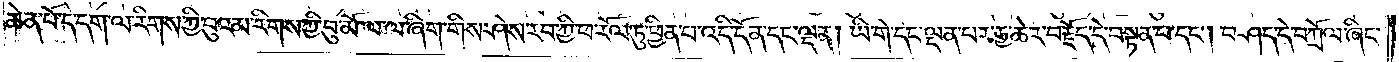ཆེན་པོ་དེ་དག་ལ་རིགས་ཀྱི་བུའམ་རིགས་ཀྱི་བུ་མོ་ལ་ལ་ཞིག་གིས་ཤེས་རབ་ཀྱི་ཕ་རོལ་ཏུ་ཕྱིན་པ་འདི་དོན་དང་ལྡན། ཡི་གེ་དང་ལྡན་པར་རྒྱ་ཆེར་བརྗོད་དེ་བསྟན་པ་དང༌། བཤད་དེ་བཀྲོལ་ཞིང་
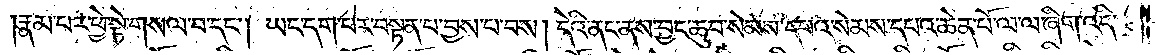རྣམ་པར་ཕྱེ་སྟེ་གསལ་བ་དང༌། ཡང་དག་པར་བསྟན་པ་བྱས་པ་བས། དེའི་ནང་ནས་བྱང་ཆུབ་སེམས་དཔའ་སེམས་དཔའ་ཆེན་པོ་ལ་ལ་ཞིག་འདི་
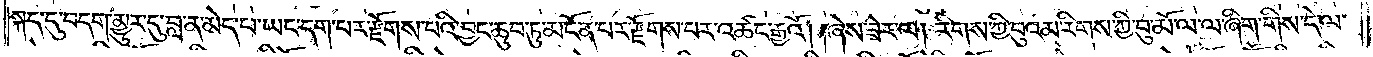སྐད་དུ་བདག་མྱུར་དུ་བླ་ན་མེད་པ་ཡང་དག་པར་རྫོགས་པའི་བྱང་ཆུབ་ཏུ་མངོན་པར་རྫོགས་པར་འཚང་རྒྱའོ། །ཞེས་ཟེར་ལ། རིགས་ཀྱི་བུའམ་རིགས་ཀྱི་བུ་མོ་ལ་ལ་ཞིག་གིས་དེ་ལ་
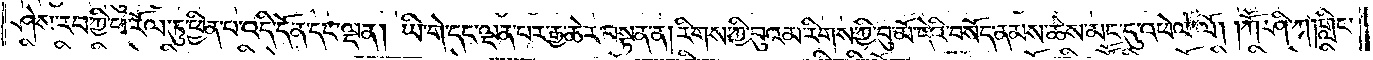ཤེས་རབ་ཀྱི་ཕ་རོལ་ཏུ་ཕྱིན་པ་འདི་དོན་དང་ལྡན། ཡི་གེ་དང་ལྡན་པར་རྒྱ་ཆེར་བསྟན་ན། རིགས་ཀྱི་བུའམ་རིགས་ཀྱི་བུ་མོ་དེའི་བསོད་ནམས་ཆེས་མང་དུ་འཕེལ་ལོ། །ཀཽ་ཤི་ཀ། གླིང་
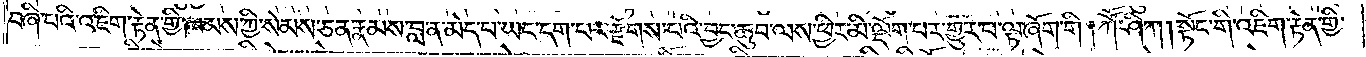བཞི་པའི་འཇིག་རྟེན་གྱི་ཁམས་ཀྱི་སེམས་ཅན་རྣམས་བླ་ན་མེད་པ་ཡང་དག་པར་རྫོགས་པའི་བྱང་ཆུབ་ལས་ཕྱིར་མི་ལྡོག་པར་གྱུར་པ་ལྟ་ཞོག་གི །ཀཽ་ཤི་ཀ། སྟོང་གི་འཇིག་རྟེན་གྱི་
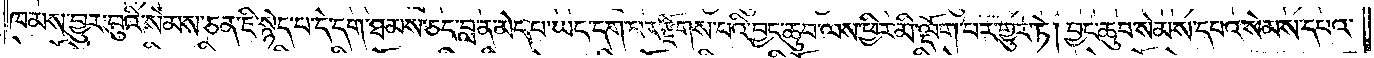ཁམས་བྱུར་བུའི་སེམས་ཅན་ཇི་སྙེད་པ་དེ་དག་ཐམས་ཅད་བླ་ན་མེད་པ་ཡང་དག་པར་རྫོགས་པའི་བྱང་ཆུབ་ལས་ཕྱིར་མི་ལྡོག་པར་གྱུར་ཏེ། བྱང་ཆུབ་སེམས་དཔའ་སེམས་དཔའ་
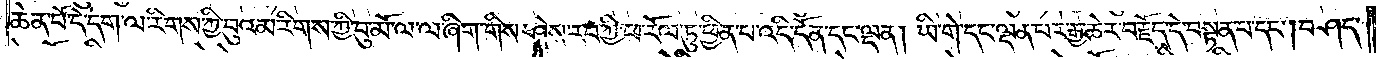ཆེན་པོ་དེ་དག་ལ་རིགས་ཀྱི་བུའམ་རིགས་ཀྱི་བུ་མོ་ལ་ལ་ཞིག་གིས། ཤེས་རབ་ཀྱི་ཕ་རོལ་ཏུ་ཕྱིན་པ་འདི་དོན་དང་ལྡན། ཡི་གེ་དང་ལྡན་པར་རྒྱ་ཆེར་བརྗོད་དེ་བསྟན་པ་དང༌། བཤད་
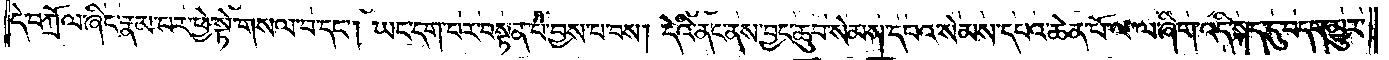དེ་བཀྲོལ་ཞིང་རྣམ་པར་ཕྱེ་སྟེ་གསལ་བ་དང༌། ཡང་དག་པར་བསྟན་པ་བྱས་པ་བས། དེའི་ནང་ནས་བྱང་ཆུབ་སེམས་དཔའ་སེམས་དཔའ་ཆེན་པོ་ལ་ལ་ཞིག་འདི་སྐད་དུ་བདག་མྱུར་
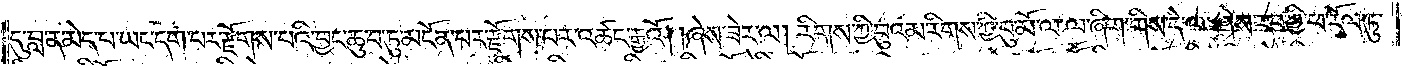དུ་བླ་ན་མེད་པ་ཡང་དག་པར་རྫོགས་པའི་བྱང་ཆུབ་ཏུ་མངོན་པར་རྫོགས་པར་འཚང་རྒྱའོ། །ཞེས་ཟེར་ལ། རིགས་ཀྱི་བུའམ་རིགས་ཀྱི་བུ་མོ་ལ་ལ་ཞིག་གིས་དེ་ལ་ཤེས་རབ་ཀྱི་ཕ་རོལ་ཏུ་
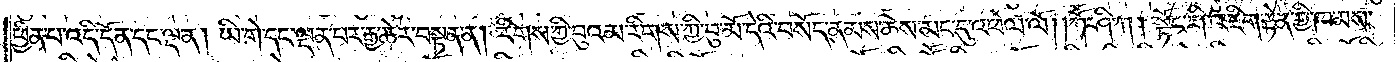ཕྱིན་པ་འདི་དོན་དང་ལྡན། ཡི་གེ་དང་ལྡན་པར་རྒྱ་ཆེར་བསྟན་ན། རིགས་ཀྱི་བུའམ་རིགས་ཀྱི་བུ་མོ་དེའི་བསོད་ནམས་ཆེས་མང་དུ་འཕེལ་ལོ། །ཀཽ་ཤི་ཀ། སྟོང་གི་འཇིག་རྟེན་གྱི་ཁམས་
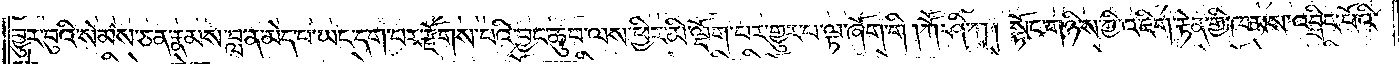བྱུར་བུའི་སེམས་ཅན་རྣམས་བླ་ན་མེད་པ་ཡང་དག་པར་རྫོགས་པའི་བྱང་ཆུབ་ལས་ཕྱིར་མི་ལྡོག་པར་གྱུར་པ་ལྟ་ཞོག་གི །ཀཽ་ཤི་ཀ། སྟོང་གཉིས་ཀྱི་འཇིག་རྟེན་གྱི་ཁམས་འབྲིང་པོའི་
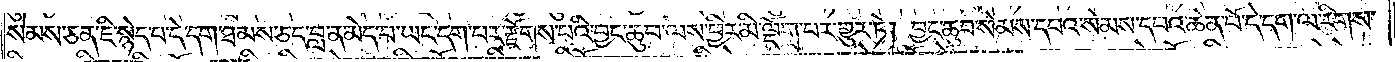སེམས་ཅན་ཇི་སྙེད་པ་དེ་དག་ཐམས་ཅད་བླ་ན་མེད་པ་ཡང་དག་པར་རྫོགས་པའི་བྱང་ཆུབ་ལས་ཕྱིར་མི་ལྡོག་པར་གྱུར་ཏེ། བྱང་ཆུབ་སེམས་དཔའ་སེམས་དཔའ་ཆེན་པོ་དེ་དག་ལ་རིགས་
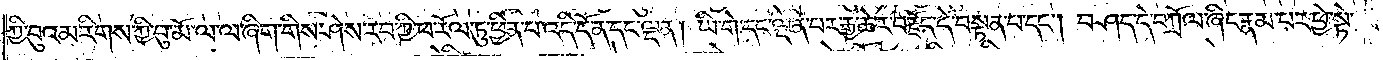ཀྱི་བུའམ་རིགས་ཀྱི་བུ་མོ་ལ་ལ་ཞིག་གིས་ཤེས་རབ་ཀྱི་ཕ་རོལ་ཏུ་ཕྱིན་པ་འདི་དོན་དང་ལྡན། ཡི་གེ་དང་ལྡན་པར་རྒྱ་ཆེར་བརྗོད་དེ་བསྟན་པ་དང༌། བཤད་དེ་བཀྲོལ་ཞིང་རྣམ་པར་ཕྱེ་སྟེ་
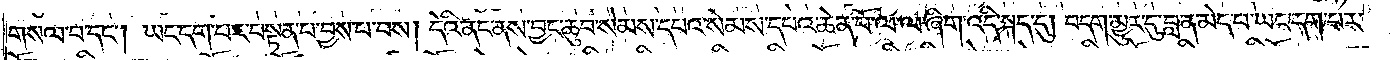གསལ་བ་དང༌། ཡང་དག་པར་བསྟན་པ་བྱས་པ་བས། དེའི་ནང་ནས་བྱང་ཆུབ་སེམས་དཔའ་སེམས་དཔའ་ཆེན་པོ་ལ་ལ་ཞིག་འདི་སྐད་དུ། བདག་མྱུར་དུ་བླ་ན་མེད་པ་ཡང་དག་པར་
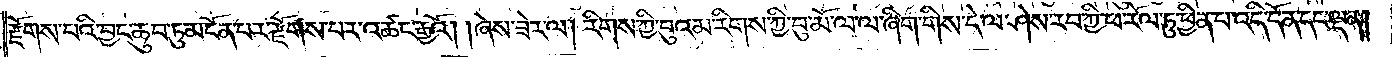རྫོགས་པའི་བྱང་ཆུབ་ཏུ་མངོན་པར་རྫོགས་པར་འཚང་རྒྱའོ། །ཞེས་ཟེར་ལ། རིགས་ཀྱི་བུའམ་རིགས་ཀྱི་བུ་མོ་ལ་ལ་ཞིག་གིས་དེ་ལ་ཤེས་རབ་ཀྱི་ཕ་རོལ་ཏུ་ཕྱིན་པ་འདི་དོན་དང་ལྡན།
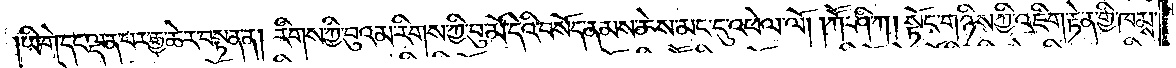ཡི་གེ་དང་ལྡན་པར་རྒྱ་ཆེར་བསྟན་ན། རིགས་ཀྱི་བུའམ་རིགས་ཀྱི་བུ་མོ་དེའི་བསོད་ནམས་ཆེས་མང་དུ་འཕེལ་ལོ། །ཀཽ་ཤི་ཀ། སྟོང་གཉིས་ཀྱི་འཇིག་རྟེན་གྱི་ཁམས་
